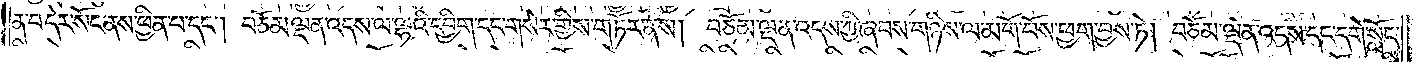ན་བ་དེར་སོང་ནས་ཕྱིན་པ་དང༌། བཅོམ་ལྡན་འདས་ལ་ལྷའི་དབྱིག་དང་གསེར་གྱིས་གཏོར་ནས། བཅོམ་ལྡན་འདས་ཀྱི་ཞབས་གཉིས་ལ་མགོ་བོས་ཕྱག་བྱས་ཏེ། བཅོམ་ལྡན་འདས་དང་དགེ་སློང་
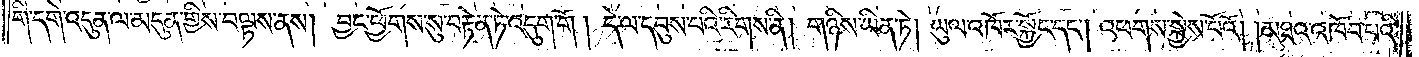གི་དགེ་འདུན་ལ་མདུན་གྱིས་བལྟས་ནས། བྱང་ཕྱོགས་སུ་བརྟེན་ཏེ་འདུག་གོ། དེ་ལ་དབུས་པའི་རིགས་ནི། གཉིས་ཡིན་ཏེ། ཡུལ་འཁོར་སྐྱོང་དང༌། འཕགས་སྐྱེས་པོའོ། །མཐའ་འཁོབ་པའི་
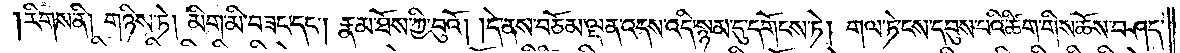རིགས་ནི། གཉིས་ཏེ། མིག་མི་བཟང་དང༌། རྣམ་ཐོས་ཀྱི་བུའོ། །དེ་ནས་བཅོམ་ལྡན་འདས་འདི་སྙམ་དུ་དགོངས་ཏེ། གལ་ཏེ་ངས་དབུས་པའི་ཚིག་གིས་ཆོས་བཤད་
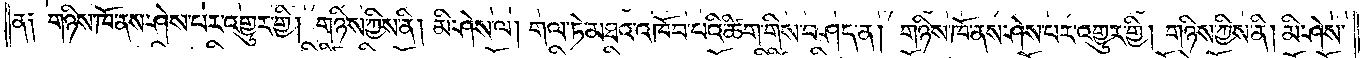ན༑ གཉིས་ཁོ་ནས་ཤེས་པར་འགྱུར་གྱི། གཉིས་ཀྱིས་ནི། མི་ཤེས་ལ། གལ་ཏེ་མཐའ་འཁོབ་པའི་ཚིག་གིས་བཤད་ན། གཉིས་ཁོ་ནས་ཤེས་པར་འགྱུར་གྱི། གཉིས་ཀྱིས་ནི། མི་ཤེས་
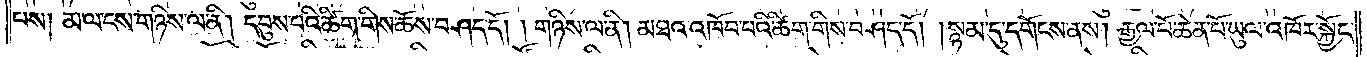པས། མ་ལ་ངས་གཉིས་ལ་ནི། དབུས་པའི་ཚིག་གིས་ཆོས་བཤད་དོ། །གཉིས་ལ་ནི། མཐའ་འཁོབ་པའི་ཚིག་གིས་བཤད་དོ། །སྙམ་དུ་དགོངས་ནས། རྒྱལ་པོ་ཆེན་པོ་ཡུལ་འཁོར་སྐྱོང་
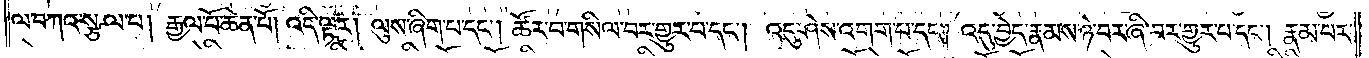ལ་བཀའ་སྩལ་པ། རྒྱལ་པོ་ཆེན་པོ། འདི་ལྟར། ལུས་ཞིག་པ་དང༌། ཚོར་བ་གསིལ་བར་གྱུར་པ་དང༌། འདུ་ཤེས་འགག་པ་དང༌། འདུ་བྱེད་རྣམས་ཉེ་བར་ཞི་བར་གྱུར་པ་དང༌། རྣམ་པར་
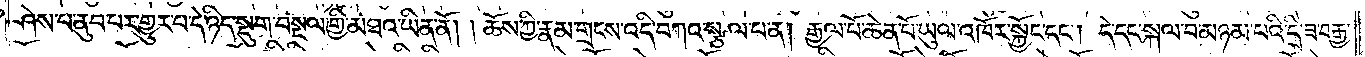ཤེས་པ་ནུབ་པར་གྱུར་པ་དེ་ཉིད་སྡུག་བསྔལ་གྱི་མཐའ་ཡིན་ནོ། །ཆོས་ཀྱི་རྣམ་གྲངས་འདི་བཀའ་སྩལ་པ་ན། རྒྱལ་པོ་ཆེན་པོ་ཡུལ་འཁོར་སྐྱོང་དང༌། དེ་དང་སྐལ་བ་མཉམ་པའི་དྲི་ཟ་བརྒྱ་
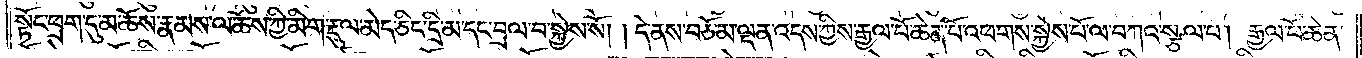སྟོང་ཕྲག་དུ་མ་ཆོས་རྣམས་ལ་ཆོས་ཀྱི་མིག་རྡུལ་མེད་ཅིང་དྲི་མ་དང་བྲལ་བ་སྐྱེས་སོ། །དེ་ནས་བཅོམ་ལྡན་འདས་ཀྱིས་རྒྱལ་པོ་ཆེན་པོ་འཕགས་སྐྱེས་པོ་ལ་བཀའ་སྩལ་པ། རྒྱལ་པོ་ཆེན་
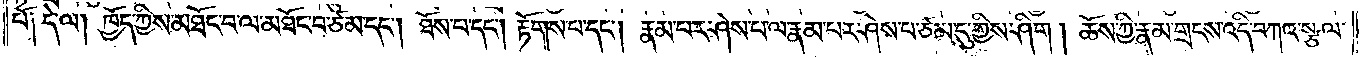པོ༑ དེ་ལ། ཁྱོད་ཀྱིས་མཐོང་བ་ལ་མཐོང་བ་ཙམ་དང༌། ཐོས་པ་དང༌། རྟོགས་པ་དང༌། རྣམ་པར་ཤེས་པ་ལ་རྣམ་པར་ཤེས་པ་ཙམ་དུ་གྱིས་ཤིག། ཆོས་ཀྱི་རྣམ་གྲངས་འདི་བཀའ་སྩལ་
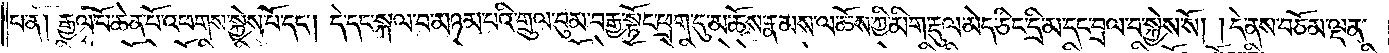པ་ན། རྒྱལ་པོ་ཆེན་པོ་འཕགས་སྐྱེས་པོ་དང༌། དེ་དང་སྐལ་བ་མཉམ་པའི་གྲུལ་བུམ་བརྒྱ་སྟོང་ཕྲག་དུ་མ་ཆོས་རྣམས་ལ་ཆོས་ཀྱི་མིག་རྡུལ་མེད་ཅིང་དྲི་མ་དང་བྲལ་བ་སྐྱེས་སོ། །དེ་ནས་བཅོམ་ལྡན་
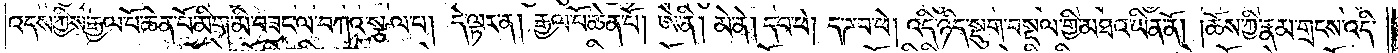འདས་ཀྱིས་རྒྱལ་པོ་ཆེན་པོ་མིག་མི་བཟང་ལ་བཀའ་སྩལ་པ། དེ་ལྟར་ན། རྒྱལ་པོ་ཆེན་པོ། ཨེ་ནི། མེ་ནེ། དབ་ཕེ། ད་ཌ་བ་ཕེ། འདི་ཉིད་སྡུག་བསྔལ་གྱི་མཐའ་ཡིན་ནོ། །ཆོས་ཀྱི་རྣམ་གྲངས་འདི་
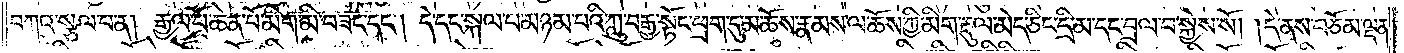བཀའ་སྩལ་པ་ན། རྒྱལ་པོ་ཆེན་པོ་མིག་མི་བཟང་དང༌། དེ་དང་སྐལ་པ་མཉམ་པའི་ཀླུ་བརྒྱ་སྟོང་ཕྲག་དུ་མ་ཆོས་རྣམས་ལ་ཆོས་ཀྱི་མིག་རྡུལ་མེད་ཅིང་དྲི་མ་དང་བྲལ་བ་སྐྱེས་སོ། །དེ་ནས་བཅོམ་ལྡན་
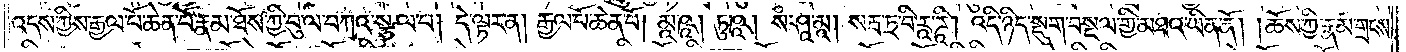འདས་ཀྱིས་རྒྱལ་པོ་ཆེན་པོ་རྣམ་ཐོས་ཀྱི་བུ་ལ་བཀའ་སྩལ་པ། དེ་ལྟར་ན། རྒྱལ་པོ་ཆེན་པོ། མཱ་ཥཱ། ཏུ་ཥཱ། སཾ་ཤཱ་མཱ། སརྦ་ཏྲ་བི་རཱ་ཌཱི། འདི་ཉིད་སྡུག་བསྔལ་གྱི་མཐའ་ཡིན་ནོ། །ཆོས་ཀྱི་རྣམ་གྲངས་
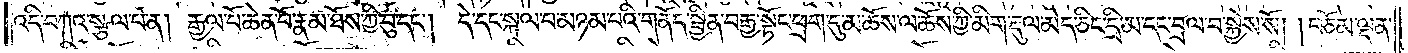འདི་བཀའ་སྩལ་པ་ན། རྒྱལ་པོ་ཆེན་པོ་རྣམ་ཐོས་ཀྱི་བུ་དང༌། དེ་དང་སྐལ་པ་མཉམ་པའི་གནོད་སྦྱིན་བརྒྱ་སྟོང་ཕྲག་དུ་མ་ཆོས་ལ་ཆོས་ཀྱི་མིག་རྡུལ་མེད་ཅིང་དྲི་མ་དང་བྲལ་བ་སྐྱེས་སོ། །བཅོམ་ལྡན་
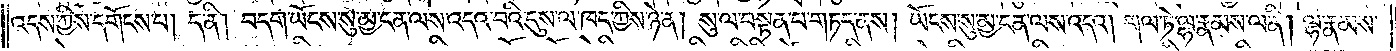འདས་ཀྱིས་དགོངས་པ། ད་ནི། བདག་ཡོངས་སུ་མྱ་ངན་ལས་འདའ་པའི་དུས་ལ་ཁད་ཀྱིས་ཉེ་ན། སུ་ལ་བསྟན་པ་གཏད་ནས། ཡོངས་སུ་མྱ་ངན་ལས་འདའ། གལ་ཏེ་ལྷ་རྣམས་ལ་ནི། ལྷ་རྣམས་
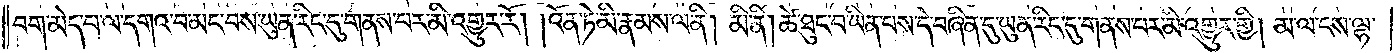བག་མེད་པ་ལ་དགའ་བ་མང་བས་ཡུན་རིང་དུ་གནས་པར་མི་འགྱུར་རོ། །འོན་ཏེ་མི་རྣམས་ལ་ནི། མི་ནི། ཚེ་ཐུང་བ་ཡིན་པས་དེ་བཞིན་དུ་ཡུན་རིང་དུ་གནས་པར་མི་འགྱུར་གྱི། མ་ལ་ངས་ལྷ་
